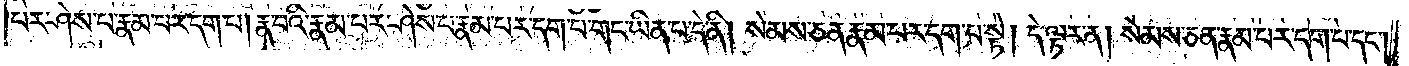པར་ཤེས་པ་རྣམ་པར་དག་པ། རྣ་བའི་རྣམ་པར་ཤེས་པ་རྣམ་པར་དག་པ་གང་ཡིན་པ་དེ་ནི། སེམས་ཅན་རྣམ་པར་དག་པ་སྟེ། དེ་ལྟར་ན། སེམས་ཅན་རྣམ་པར་དག་པ་དང༌།
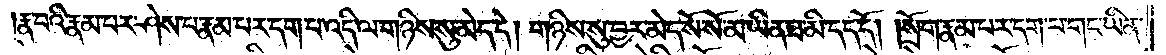རྣ་བའི་རྣམ་པར་ཤེས་པ་རྣམ་པར་དག་པ་འདི་ལ་གཉིས་སུ་མེད་དེ། གཉིས་སུ་བྱར་མེད་སོ་སོ་མ་ཡིན་ཐ་མི་དད་དོ། །སྲོག་རྣམ་པར་དག་པ་གང་ཡིན་
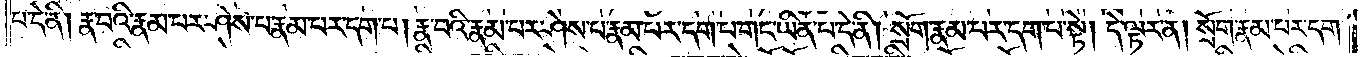པ་དེ་ནི། རྣ་བའི་རྣམ་པར་ཤེས་པ་རྣམ་པར་དག་པ། རྣ་བའི་རྣམ་པར་ཤེས་པ་རྣམ་པར་དག་པ་གང་ཡིན་པ་དེ་ནི། སྲོག་རྣམ་པར་དག་པ་སྟེ། དེ་ལྟར་ན། སྲོག་རྣམ་པར་དག་
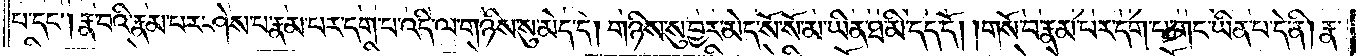པ་དང༌། རྣ་བའི་རྣམ་པར་ཤེས་པ་རྣམ་པར་དག་པ་འདི་ལ་གཉིས་སུ་མེད་དེ། གཉིས་སུ་བྱར་མེད་སོ་སོ་མ་ཡིན་ཐ་མི་དད་དོ། །གསོ་བ་རྣམ་པར་དག་པ་གང་ཡིན་པ་དེ་ནི། རྣ་
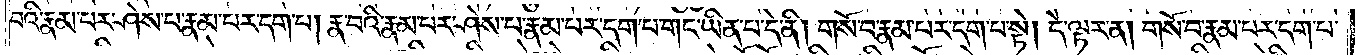བའི་རྣམ་པར་ཤེས་པ་རྣམ་པར་དག་པ། རྣ་བའི་རྣམ་པར་ཤེས་པ་རྣམ་པར་དག་པ་གང་ཡིན་པ་དེ་ནི། གསོ་བ་རྣམ་པར་དག་པ་སྟེ། དེ་ལྟར་ན། གསོ་བ་རྣམ་པར་དག་པ་
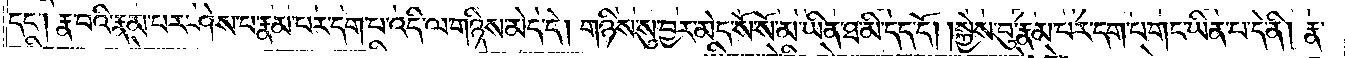དང༌། རྣ་བའི་རྣམ་པར་ཤེས་པ་རྣམ་པར་དག་པ་འདི་ལ་གཉིས་སུ་མེད་དེ། གཉིས་སུ་བྱར་མེད་སོ་སོ་མ་ཡིན་ཐ་མི་དད་དོ། །སྐྱེས་བུ་རྣམ་པར་དག་པ་གང་ཡིན་པ་དེ་ནི། རྣ་
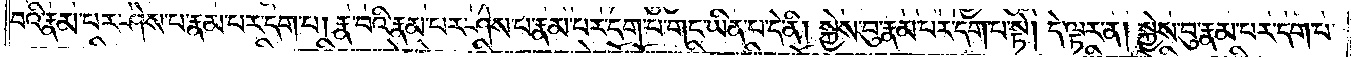བའི་རྣམ་པར་ཤེས་པ་རྣམ་པར་དག་པ། རྣ་བའི་རྣམ་པར་ཤེས་པ་རྣམ་པར་དག་པ་གང་ཡིན་པ་དེ་ནི། སྐྱེས་བུ་རྣམ་པར་དག་པ་སྟེ། དེ་ལྟར་ན། སྐྱེས་བུ་རྣམ་པར་དག་པ་
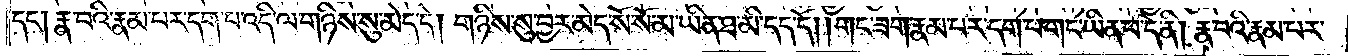དང༌། རྣ་བའི་རྣམ་པར་ཤེས་པ་རྣམ་པར་དག་པ་འདི་ལ་གཉིས་སུ་མེད་དེ། གཉིས་སུ་བྱར་མེད་སོ་སོ་མ་ཡིན་ཐ་མི་དད་དོ། །གང་ཟག་རྣམ་པར་དག་པ་གང་ཡིན་པ་དེ་ནི། རྣ་བའི་རྣམ་པར་
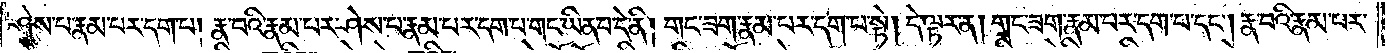ཤེས་པ་རྣམ་པར་དག་པ། རྣ་བའི་རྣམ་པར་ཤེས་པ་རྣམ་པར་དག་པ་གང་ཡིན་པ་དེ་ནི། གང་ཟག་རྣམ་པར་དག་པ་སྟེ། དེ་ལྟར་ན། གང་ཟག་རྣམ་པར་དག་པ་དང༌། རྣ་བའི་རྣམ་པར་
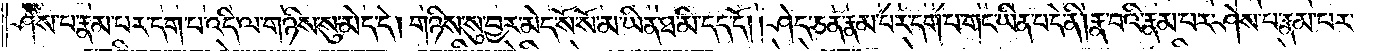ཤེས་པ་རྣམ་པར་དག་པ་འདི་ལ་གཉིས་སུ་མེད་དེ། གཉིས་སུ་བྱར་མེད་སོ་སོ་མ་ཡིན་ཐ་མི་དད་དོ། །ཤེད་ཅན་རྣམ་པར་དག་པ་གང་ཡིན་པ་དེ་ནི། རྣ་བའི་རྣམ་པར་ཤེས་པ་རྣམ་པར་
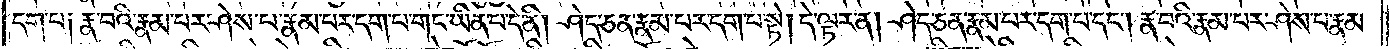དག་པ༑ རྣ་བའི་རྣམ་པར་ཤེས་པ་རྣམ་པར་དག་པ་གང་ཡིན་པ་དེ་ནི། ཤེད་ཅན་རྣམ་པར་དག་པ་སྟེ། དེ་ལྟར་ན། ཤེད་ཅན་རྣམ་པར་དག་པ་དང༌། རྣ་བའི་རྣམ་པར་ཤེས་པ་རྣམ་
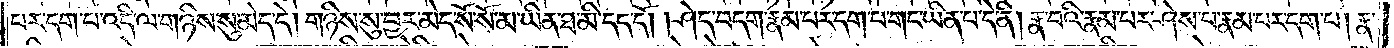པར་དག་པ་འདི་ལ་གཉིས་སུ་མེད་དེ། གཉིས་སུ་བྱར་མེད་སོ་སོ་མ་ཡིན་ཐ་མི་དད་དོ། །ཤེད་བདག་རྣམ་པར་དག་པ་གང་ཡིན་པ་དེ་ནི། རྣ་བའི་རྣམ་པར་ཤེས་པ་རྣམ་པར་དག་པ། རྣ་
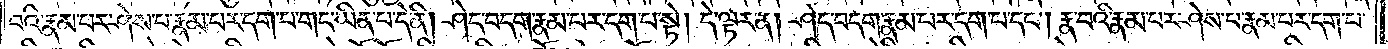བའི་རྣམ་པར་ཤེས་པ་རྣམ་པར་དག་པ་གང་ཡིན་པ་དེ་ནི། ཤེད་བདག་རྣམ་པར་དག་པ་སྟེ། དེ་ལྟར་ན། ཤེད་བདག་རྣམ་པར་དག་པ་དང༌། རྣ་བའི་རྣམ་པར་ཤེས་པ་རྣམ་པར་དག་པ་
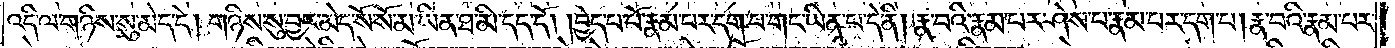འདི་ལ་གཉིས་སུ་མེད་དེ། གཉིས་སུ་བྱར་མེད་སོ་སོ་མ་ཡིན་ཐ་མི་དད་དོ། །བྱེད་པ་པོ་རྣམ་པར་དག་པ་གང་ཡིན་པ་དེ་ནི། རྣ་བའི་རྣམ་པར་ཤེས་པ་རྣམ་པར་དག་པ། རྣ་བའི་རྣམ་པར་
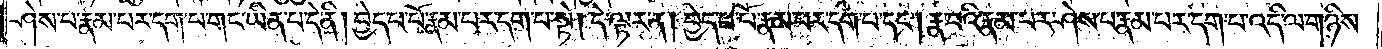ཤེས་པ་རྣམ་པར་དག་པ་གང་ཡིན་པ་དེ་ནི། བྱེད་པ་པོ་རྣམ་པར་དག་པ་སྟེ། དེ་ལྟར་ན། བྱེད་པ་པོ་རྣམ་པར་དག་པ་དང༌། རྣ་བའི་རྣམ་པར་ཤེས་པ་རྣམ་པར་དག་པ་འདི་ལ་གཉིས་
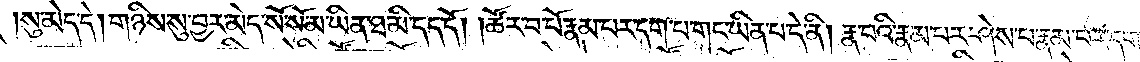སུ་མེད་དེ། གཉིས་སུ་བྱར་མེད་སོ་སོ་མ་ཡིན་ཐ་མི་དད་དོ། །ཚོར་བ་པོ་རྣམ་པར་དག་པ་གང་ཡིན་པ་དེ་ནི། རྣ་བའི་རྣམ་པར་ཤེས་པ་རྣམ་པར་དག་
